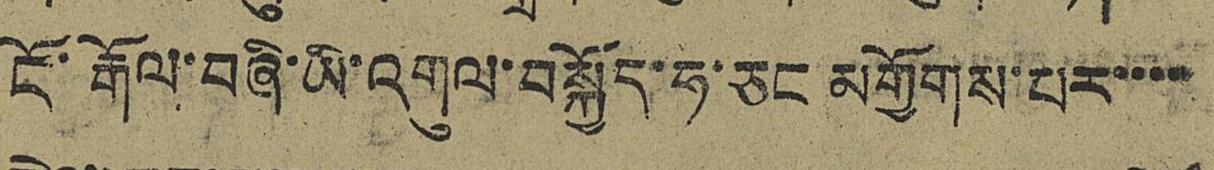ངོ་རྒོལ་བཞི་ཡི་འགུལ་བསྐྱོད་ཧ་ཅང མགྱོགས་པར་་་་
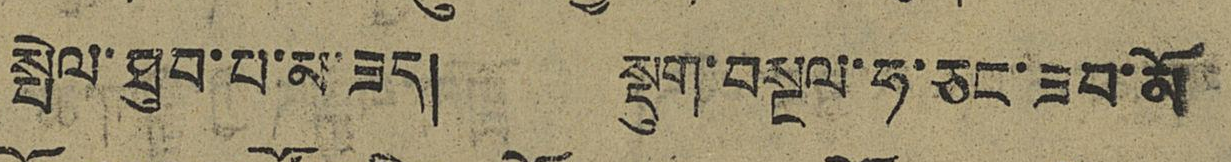སྤེལ་ཐུབ་པ་མ་ཟད། སྡུག་བསྔལ་ཧ་ཅང་ཟབ་མོ
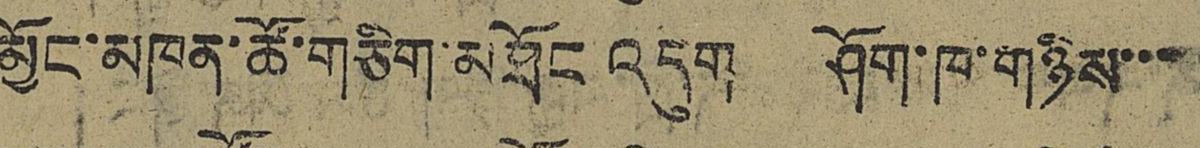མྱོང་མཁན་ཚོ་གཅིག་མཐོང འདུག ཤོག་ཁ་གཉིས་་་
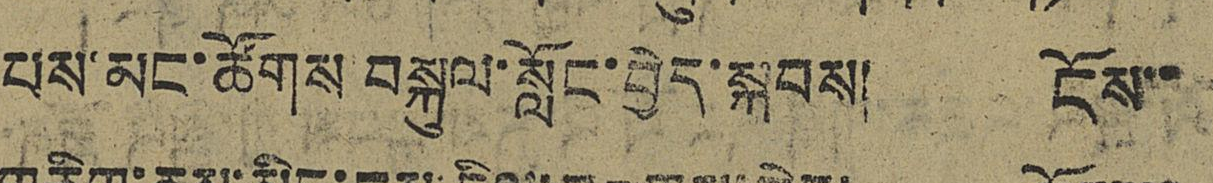པས་མང་ཚོགས་བསྐུལ་སློང་བྱེད་སྐབས། ངོས་་
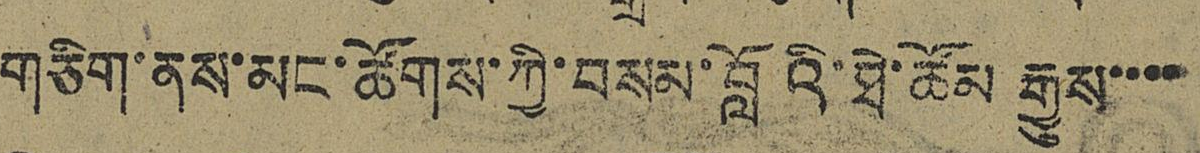གཅིག་ནས་མང་ཚོགས་ཀྱི་བསམ་བློའི་ཐེ་མོམ རྒྱུས་་་་
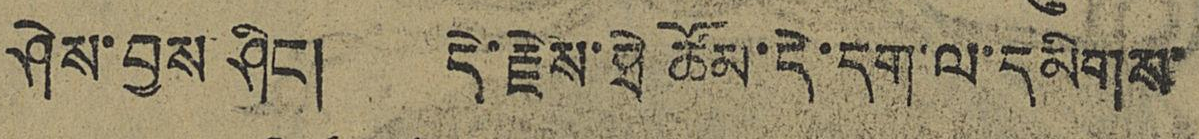ཤེས་བྱས་ཤིང། དེ་རྗེས་ཐེ ཚོམ་དེ་དག་ལ་དམིགས
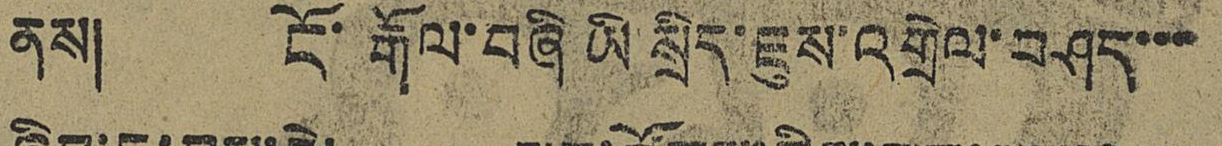ནས། ངོ་རྒོལ་བཞི་ཡི་སྲིད་ཇུས་འགྲེལ་བཤད་་་
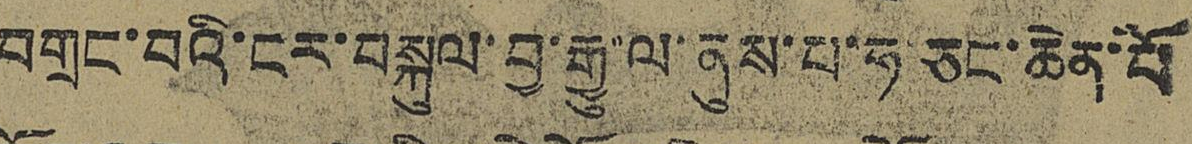བགྲང་བའི་ངར་བསྐུལ་བྱ་རྒྱུ་ལ་ནུས་པ་ཧ་ཅང་ཆེན་པོ
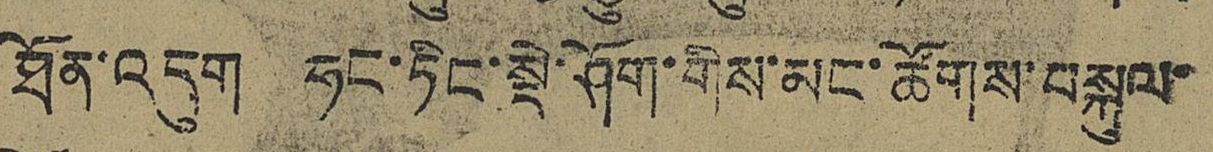ཐོན་འདུག ཧང་ཏིང་སྡེ་ཤོག་གིས་མང་ཚོགས་བསྐུལ་
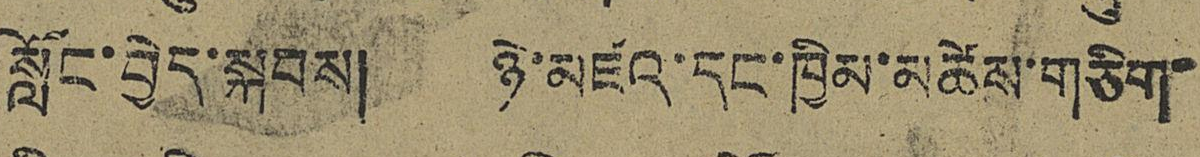སློང་བྱེད་སྐབས། ཉེ་མཛའ་དང་ཁྱིམ་མཚེས་གཅིག་
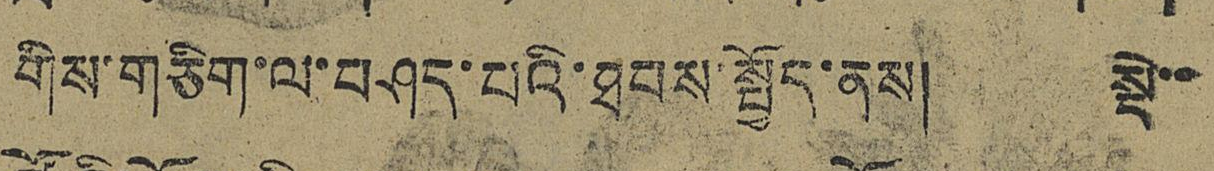གིས་གཅིག་ལ་བཤད་པའི་ཐབས་སྤྱོད་ནས། སྡེ་་
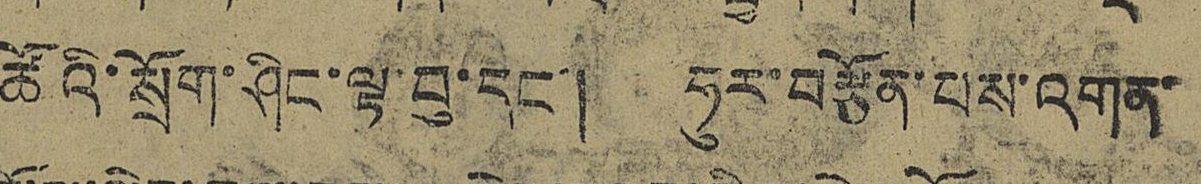ཚོའི་སྲོག་ཤིང་ལྟ་བུ་དང་། ཧུར་བརྩོན་པས་འགན་
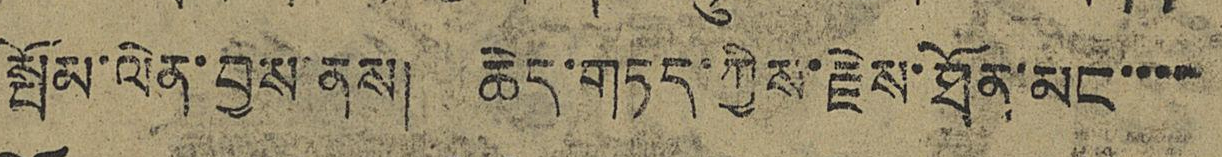སྤོམ་ལེན་བྱས་ནས། ཆེད་གཏད་ཀྱིས་རྗེས་ཐོན་མང་་་་
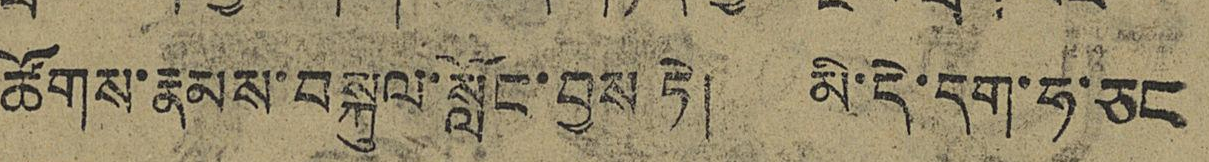ཚོགས་རྣམས་བསྐུལ་སློང་བྱས་ཏེ། མི་དེ་དག་ཧ་ཅང
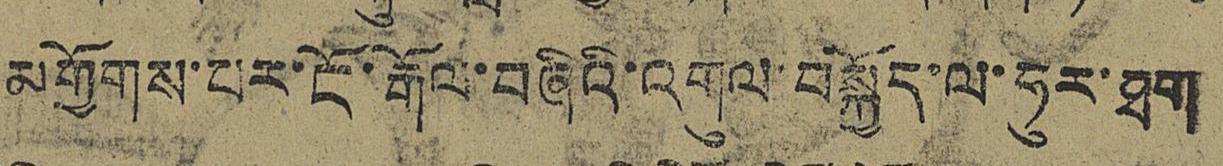མགྱོགས་པར་ངོ་རྒོལ་བཞིའི་འགུལ་བསྐྱོད་ལ་ཧུར་ཐག
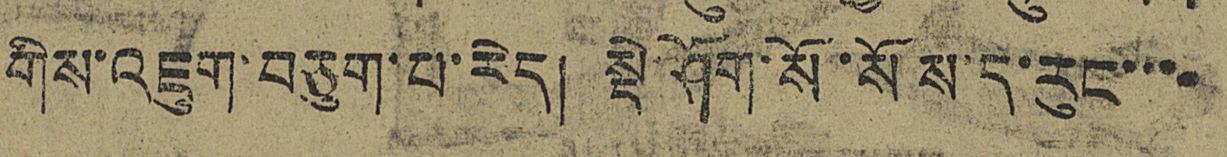གིས་འཛུག་བཅུག་པ་རེད། སྡེ་ཤོག་སོ་སོས་ད་རུང་་་
